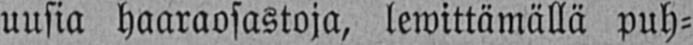uusia haaraosastoja, lewittämällä puh-
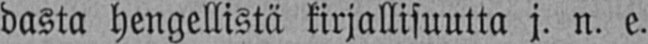dasta hengellistä kirjallisuutta j. n. e.
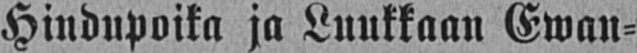Hindupoika ja Luukkaan Ewan-
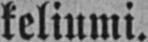keliumi.
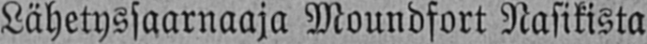Lähetyssaarnaaja Moundfort Nasikista
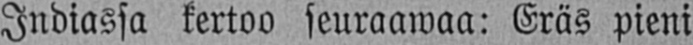Indiassa kertoo seuraawaa: Eräs pieni
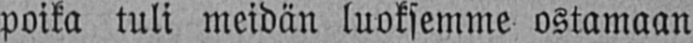poika tuli meidän luoksemme ostamaan
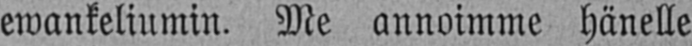ewankeliumin. Me annoimme hänelle
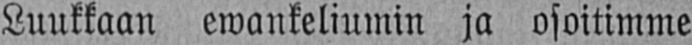Luukkaan ewankeliumin ja osoitimme
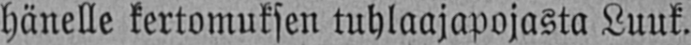hänelle kertomuksen tuhlaajapojasta Luuk.
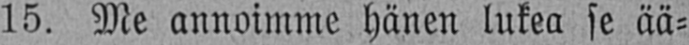15. Me annoimme hänen lukea se ää-
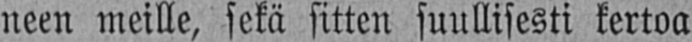neen meille, sekä sitten suullisesti kertoa
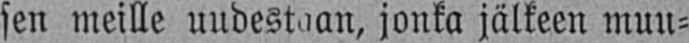sen meille uudestaan, jonka jälkeen muu-
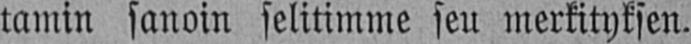tamin sanoin selitimme seu merkityksen.
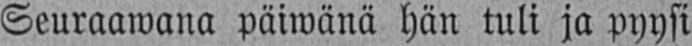Seuraawana päiwänä hän tuli ja pyysi
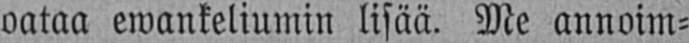oataa ewankeliumin lisää. Me annoim-
